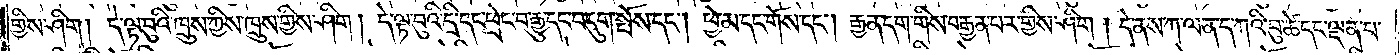གྱིས་ཤིག། དེ་ལྟ་བུའི་ཁྲུས་ཀྱིས་ཁྲུས་གྱིས་ཤིག། དེ་ལྟ་བུའི་དྲི་དང་ཕྲེང་བ་རྒྱུ་དང་བདུག་སྤོས་དང༌། ཕྱེ་མ་དང་གོས་དང༌། རྒྱན་དག་གིས་བརྒྱན་པར་གྱིས་ཤིག། དེ་ནས་ཀ་ལན་ད་ཀའི་བུ་ཚེ་དང་ལྡན་པ་
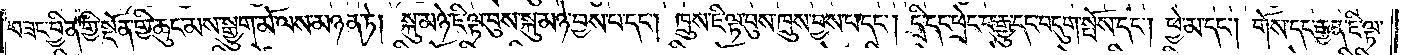བཟང་བྱིན་གྱི་སྔོན་གྱི་ཆུང་མས་སྒྱུག་མོ་ལས་མཉན་ཏེ། སྐུ་མཉེ་ཇི་ལྟ་བུས་སྐུ་མཉེ་བྱས་པ་དང༌། ཁྲུས་ཇི་ལྟ་བུས་ཁྲུས་བྱས་པ་དང༌། དྲི་དང་ཕྲེང་བ་རྒྱུ་དང་བདུག་སྤོས་དང༌། ཕྱེ་མ་དང༌། གོས་དང་རྒྱན་ཇི་ལྟ་
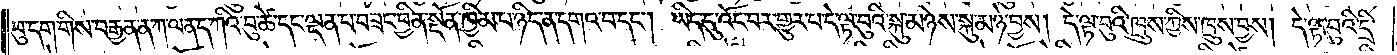བུ་དག་གིས་བརྒྱན་ན་ཀ་ལན་ད་ཀའི་བུ་ཚེ་དང་ལྡན་པ་བཟང་བྱིན་སྔོན་ཁྱིམ་པ་ཉིད་ན་དགའ་བ་དང༌། ཡིད་དུ་འོང་བར་གྱུར་པ་དེ་ལྟ་བུའི་སྐུ་མཉེས་སྐུ་མཉེ་བྱས། དེ་ལྟ་བུའི་ཁྲུས་ཀྱིས་ཁྲུས་བྱས། དེ་ལྟ་བུའི་དྲི་
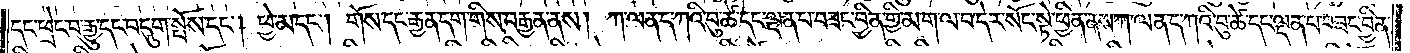དང་ཕྲེང་བ་རྒྱུ་དང་བདུག་སྤོས་དང༌། ཕྱེ་མ་དང༌། གོས་དང་རྒྱན་དག་གིས་བརྒྱན་ནས། ཀ་ལན་ད་ཀའི་བུ་ཚེ་དང་ལྡན་པ་བཟང་བྱིན་གྱི་མ་ག་ལ་བ་དེར་སོང་སྟེ་ཕྱིན་ནས་ཀ་ལན་ད་ཀའི་བུ་ཚེ་དང་ལྡན་པ་བཟང་བྱིན་
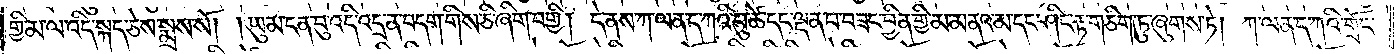གྱི་མ་ལ་འདི་སྐད་ཅེས་སྨྲས་སོ། །ཡུམ་ངན་བུ་འདི་འདྲ་ན་བདག་གིས་ཅི་ཞིག་བགྱི། དེ་ནས་ཀ་ལན་ད་ཀའི་བུ་ཚེ་དང་ལྡན་པ་བཟང་བྱིན་གྱི་མ་མནའ་མ་དང་ཤིང་རྟ་གཅིག་ཏུ་ཞུགས་ཏེ། ཀ་ལན་ད་ཀའི་གྲོང་
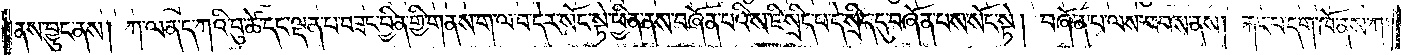ནས་བྱུང་ནས། ཀ་ལན་ད་ཀའི་བུ་ཚེ་དང་ལྡན་པ་བཟང་བྱིན་གྱི་གནས་ག་ལ་བ་དེར་སོང་སྟེ་ཕྱིན་ནས་བཞོན་པའི་ས་ཇི་སྲིད་པ་དེ་སྲིད་དུ་བཞོན་པས་སོང་སྟེ། བཞོན་པ་ལས་བབས་ནས། རྐང་པ་དག་ཁོ་ནས་ཀ་
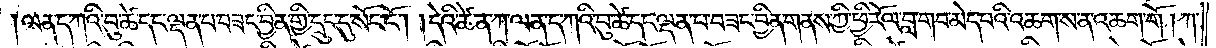།ལན་ད་ཀའི་བུ་ཚེ་དང་ལྡན་པ་བཟང་བྱིན་གྱི་དྲུང་དུ་སོང་ངོ༌། །དེའི་ཚེ་ན་ཀ་ལན་ད་ཀའི་བུ་ཚེ་དང་ལྡན་པ་བཟང་བྱིན་གནས་ཀྱི་ཕྱི་རོལ་བླ་གབ་མེད་པའི་འཆགས་ས་ན་འཆག་ས་ན་འཆག་གོ །ཀ་
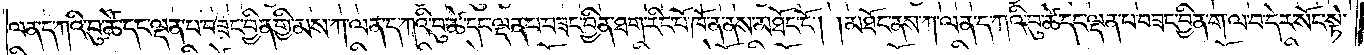ལན་ད་ཀའི་བུ་ཚེ་དང་ལྡན་པ་བཟང་བྱིན་གྱི་མས་ཀ་ལན་ད་ཀའི་བུ་ཚེ་དང་ལྡན་པ་བཟང་བྱིན་ཐག་རིང་པོ་ཁོ་ན་ནས་མཐོང་ངོ༌། །མཐོང་ནས་ཀ་ལན་ད་ཀའི་བུ་ཚེ་དང་ལྡན་པ་བཟང་བྱིན་ག་ལ་བ་དེར་སོང་སྟེ་
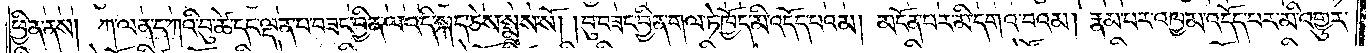ཕྱིན་ནས། ཀ་ལན་ད་ཀའི་བུ་ཚེ་དང་ལྡན་པ་བཟང་བྱིན་ལ་འདི་སྐད་ཅེས་སྨྲས་སོ། །བུ་བཟང་བྱིན་གལ་ཏེ་ཁྱོད་མི་འདོད་པའམ། མངོན་པར་མི་དགའ་བའམ། རྣམ་པར་འཁྱམ་འདོད་པར་མི་འགྱུར་
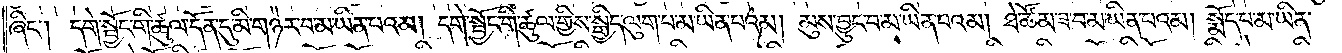ཞིང༌། དགེ་སྦྱོང་གི་ཚུལ་དོན་དུ་མི་གཉེར་བ་མ་ཡིན་པའམ། དགེ་སྦྱོང་གི་ཚུལ་གྱིས་སྒྱིད་ལུག་པ་མ་ཡིན་པའམ། མུས་བྱུང་བ་མ་ཡིན་པའམ། ཐེ་ཚོམ་ཟ་བ་མ་ཡིན་པའམ། སྨོད་པ་མ་ཡིན་
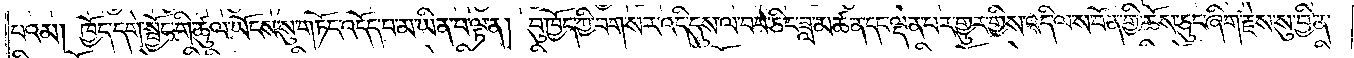པའམ། ཁྱོད་དགེ་སྦྱོང་གི་ཚུལ་ཡོངས་སུ་གཏོང་འདོད་པ་མ་ཡིན་པ་ལྟ་ན། བུ་ཁྱོད་ཀྱི་བག་སར་འདི་དུས་ལ་བབ་ཅིང་ཟླ་མཚན་དང་ལྡན་པར་གྱུར་གྱིས་འདི་ལ་ས་བོན་གྱི་ཆོས་ཅུང་ཞིག་རྗེས་སུ་བྱིན་
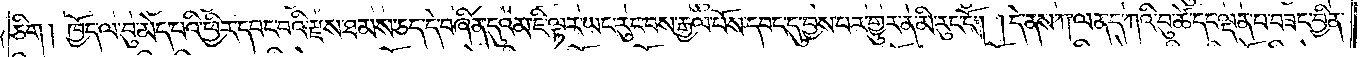ཅིག །ཁྱོད་ལ་བུ་མེད་པའི་ཕྱིར་དབང་པའི་རྫས་ཐམས་ཅད་དེ་བཞིན་དུའམ་ཇི་ལྟར་ཡང་རུང་བས་རྒྱལ་པོས་དབང་དུ་བྱས་པར་གྱུར་ན་མི་རུང་ངོ༌། །དེ་ནས་ཀ་ལན་ད་ཀའི་བུ་ཚེ་དང་ལྡན་པ་བཟང་བྱིན་
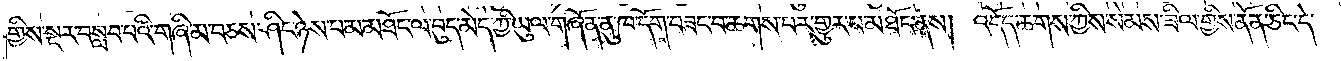གྱིས་སྔར་བསླབ་པའི་གཞི་མ་བཅས་ཤིང་ཉེས་པ་མ་མཐོང་ལ་བུད་མེད་ཀྱི་ཡུལ་གཞོན་ནུ་ཁ་དོག་བཟང་བ་ཆགས་པར་གྱུར་པ་མཐོང་ནས། འདོད་ཆགས་ཀྱིས་སེམས་ཟིལ་གྱིས་ནོན་ཅིང་དེ་
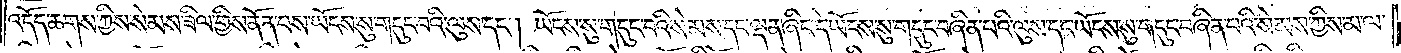འདོད་ཆགས་ཀྱིས་སེམས་ཟིལ་གྱིས་ནོན་པས་ཡོངས་སུ་གདུང་བའི་ལུས་དང༌། ཡོངས་སུ་གདུང་བའི་སེམས་དང་ལྡན་ཞིང་དེ་ཡོངས་སུ་གདུང་བཞིན་པའི་ལུས་དང་ཡོངས་སུ་གདུང་བཞིན་པའི་སེམས་ཀྱིས་མ་ལ་
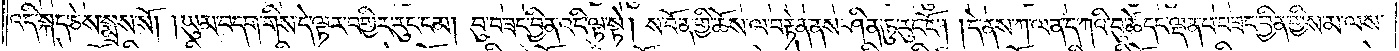འདི་སྐད་ཅེས་སྨྲས་སོ། །ཡུམ་བདག་གིས་དེ་ལྟར་བགྱིར་རུང་ངམ། བུ་བཟང་བྱིན་འདི་ལྟ་སྟེ། ས་བོན་གྱི་ཆོས་ལ་བརྟེན་ནས་ཤིན་ཏུ་རུང་ངོ༌། །དེ་ནས་ཀ་ལན་ད་ཀའི་བུ་ཚེ་དང་ལྡན་པ་བཟང་བྱིན་གྱིས་མ་ལས་
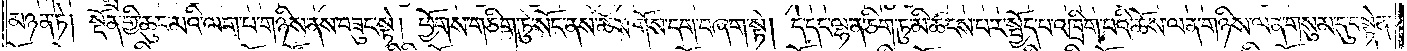མཉན་ཏེ། སྔོན་གྱི་ཆུང་མའི་ལག་པ་གཉིས་ནས་བཟུང་སྟེ། ཕྱོགས་གཅིག་ཏུ་སོང་ནས་ཆོས་གོས་དག་བཞག་སྟེ། དེ་དང་ལྷན་ཅིག་ཏུ་མི་ཚངས་པར་སྤྱོད་པ་འཁྲིག་པའི་ཆོས་ལན་གཉིས་ལན་གསུམ་དུ་བསྟེན་
